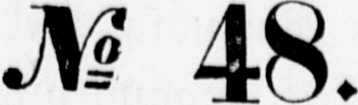No 48.
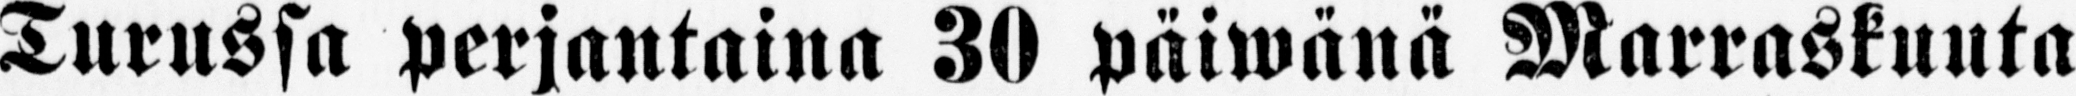Turussa perjantaina 30 päiwänä Marraskuuta
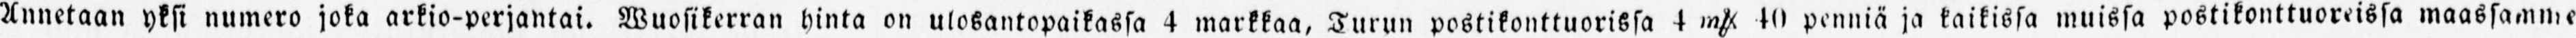Annetaan yksi numero joka arkio-perjantai. hinta on ulosantopaikassa 4 markkaa, Turun postikonttuorissa 4 m&. 40 penniä ja kaikissa muissa postikonttuoreissa maassamme
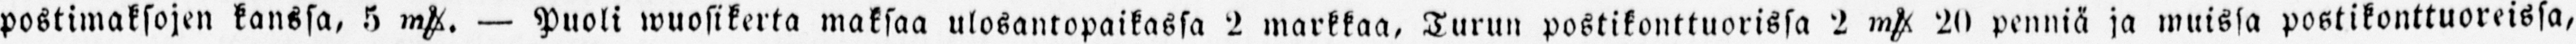postimaksojen kanssa, 5 m&. — Puoli wuosikerta maksaa ulosantopaikassa 2 markkaa, Turun postikonttuorissa 2 m&. 20 penniä ja muissa postikonttuoreissa,
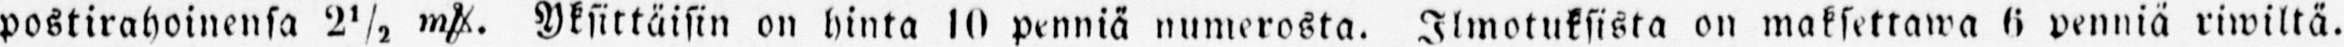postirahoinensa 2½ m&. Yksittäisin on hinta 10 penniä numerosta. Ilmotuksista on maksetrawa 6 penniä riwiltä.
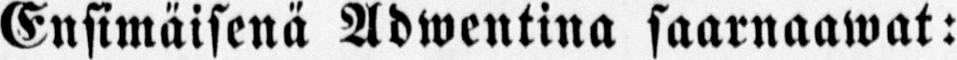Ensimäisenä Adwentina saarnaawat:
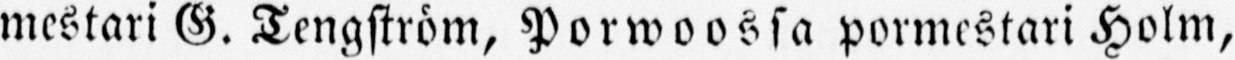mestari G. Tengström, Porwoossa pormestari Holm,
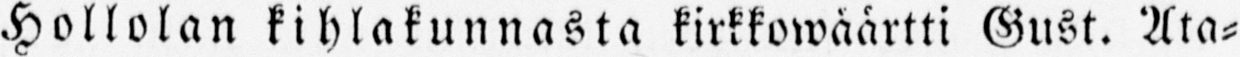Hollolan kihlakunnasta kirkkowäärtti Gust. Ata-
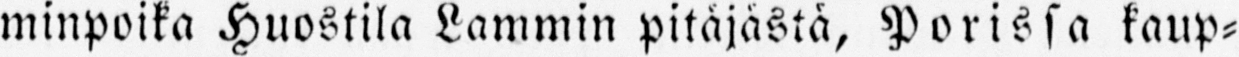minpoika Huostila Lammin pitäjästä, Porissa kaup-
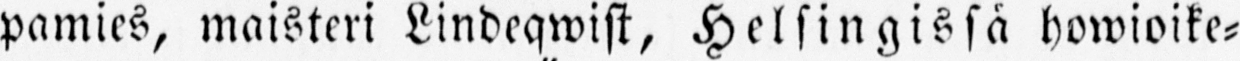pamies, maisteri Lindeqwist, Helsingissä howioike-
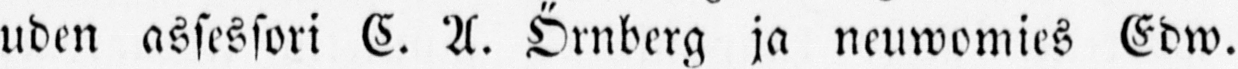uden assessori C. A. Örnberg ja neuwomies Edw.
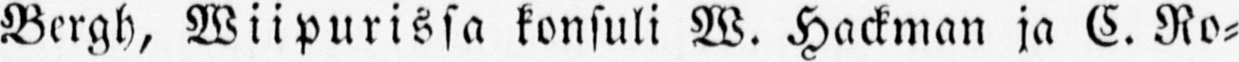Bergh, Wiipurissa konsuli W. Hackman ja C. Ro-
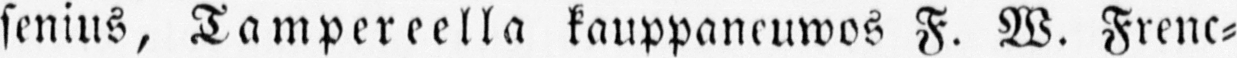senius, Tampereella kauppaneuwos F. W. Frenc-
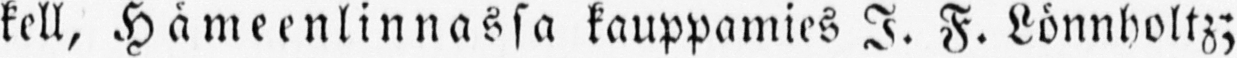kell, Hämeenlinnassa kauppamies I. F. Lönnholtz;
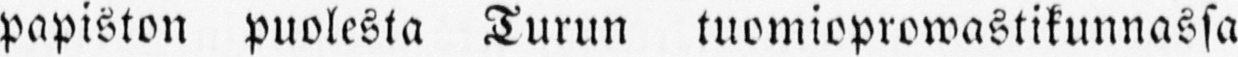papiston puolesta Turun tuomioprowastikunnassa
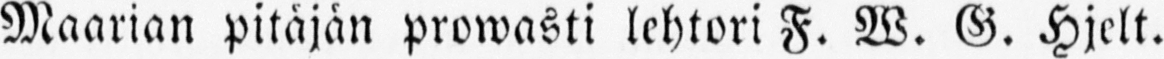Maarian pitäjän prowasti lehtori F. W. G. Hjelt.
